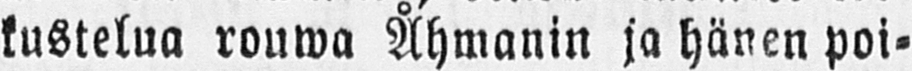kustelua rouwa Åhmanin ja hänen poi-
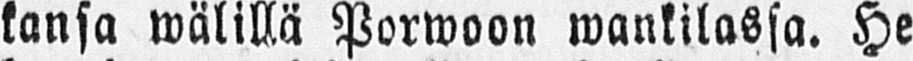kansa wälillä Porwoon wankilassa. He
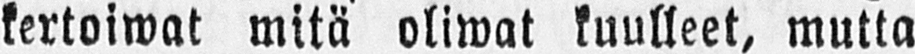kertoiwat mitä oliwat kuulleet, mutta
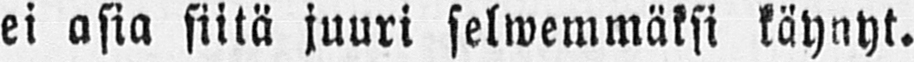ei asia siitä juuri selwemmäksi käynyt.
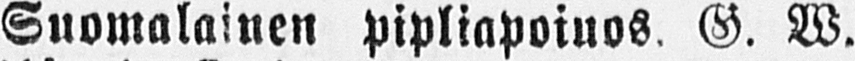Suomalainen pipliapoiuos. G. W.
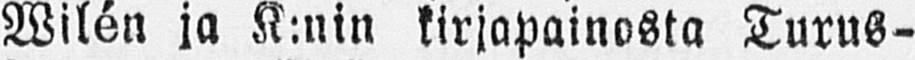Wilén ja K:nin kirjapainosta Turus-
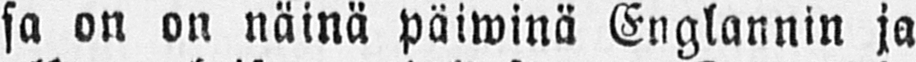sa on on näinä päiwinä Englannin ja
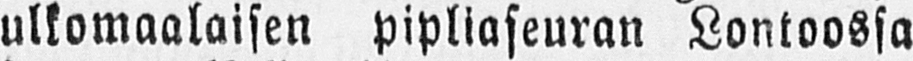ulkomaalaisen pipliaseuran Lontoossa
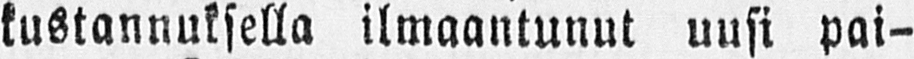kustannuksella ilmaantunut uusi pai-
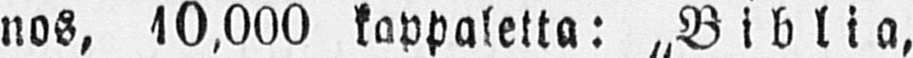nos, 10,000 kappaletta: „Biblia,
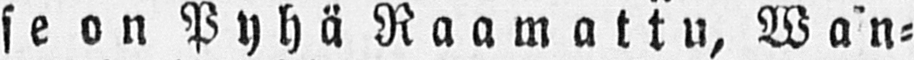se on Pyhä Raamattu, Wan-
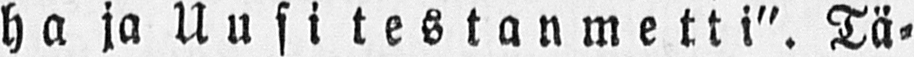ha ja Uusi testanmetti". Tä-
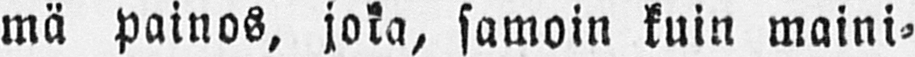mä painos, joka, samoin kuin maini-
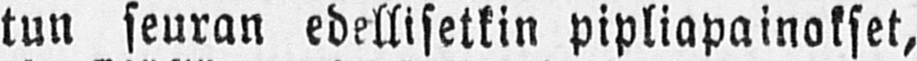tun seuran edellisetkin pipliapainokset,
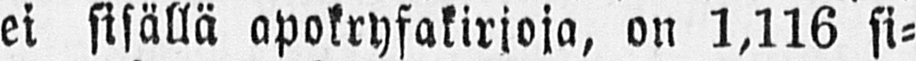ei sisällä apokryfakirjoja, on 1,116 si-
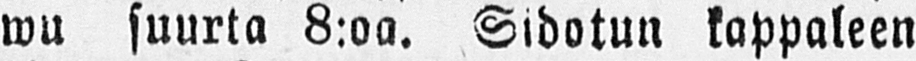wu suurta 8:oa. Sidotun kappaleen
